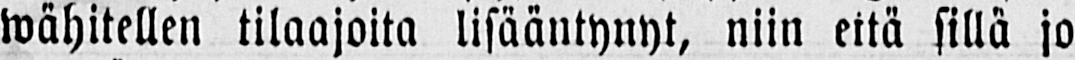wähitellen tilaajoita lisääntynyt, niin eitä sillä jo
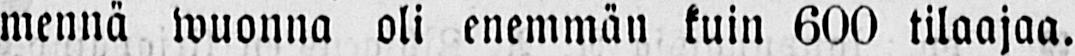mennä wuonna oli enemmän kuin 600 tilaajaa.
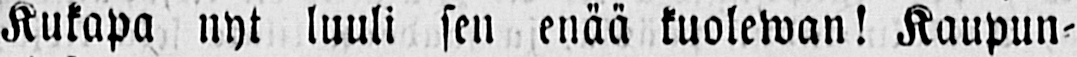Kukapa nyt luuli sen enää kuolewan! Kaupun-
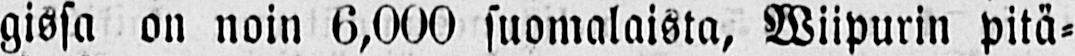gissa on noin 6,000 suomalaista, Wiipurin pitä-
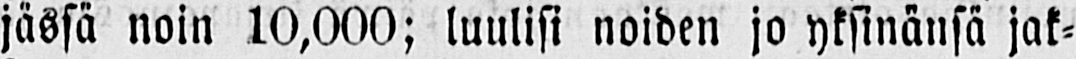jässä noin 10,000; luulisi noiden jo yksinänsä jak-
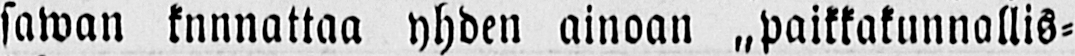saman knnnattaa yhden ainoan „paikkakunnallis-
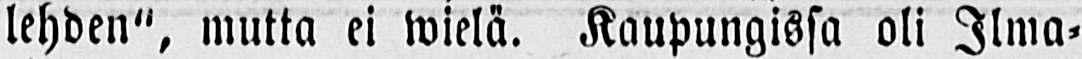lehden”, mutta ei wielä. Kaupungissa oli Ilma-
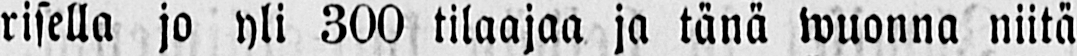risella jo yli 300 tilaajaa ja tänä wuonna niitä
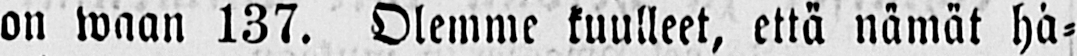on waan 137. Olemme kuulleet, että nämät hä-
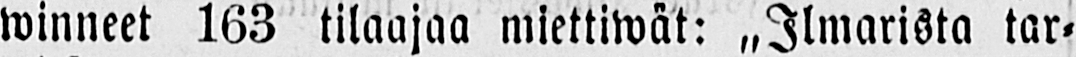winneet 163 tilaajaa miettiwät: „Ilmarista tar-
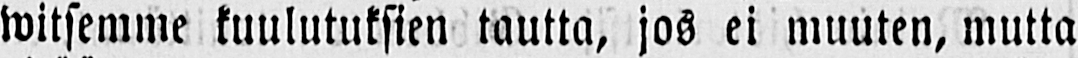witsemme kuulutuksien tautta, jos ei muuten, mutta
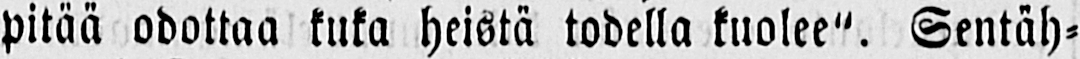pitää odottaa kuka heistä todella kuolee”. Sentäh-
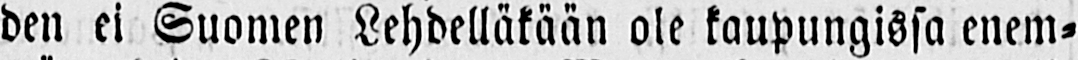den ei Suomen Lehdelläkään ole kaupungissa enem-
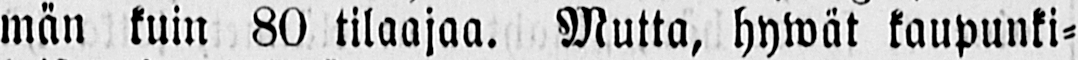män kuin 80 tilaajaa. Mutta, hywät kaupunki-
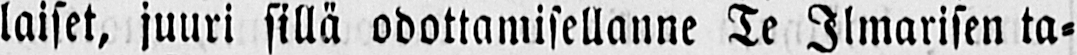laiset, juuri sillä odottamisellanne Te Ilmarisen ta-
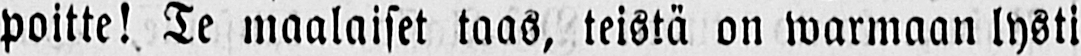poitte! Te maalaiset taas, teistä on warmaan lysti
